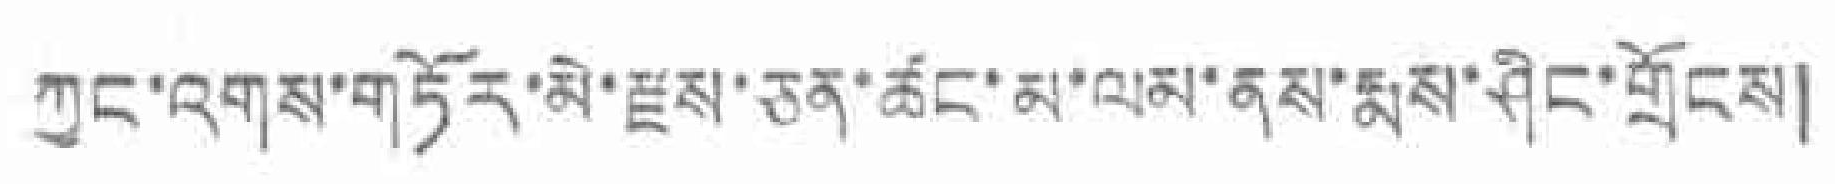ཀྱང་འགས་གཏོར་མེ་རྫས་ཅན་ཚོང་མ་ལམ་ནས་རྨས་ཤིང་གྲོངས།
